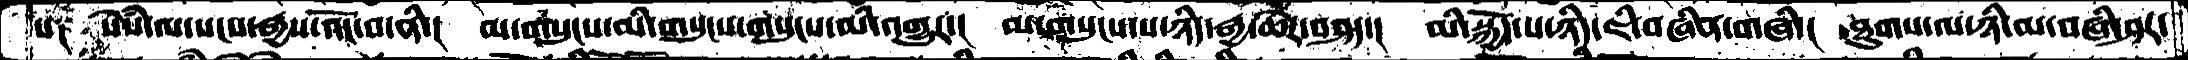པ༑  སེཾས་ལ་སངས་རྒྱས་འོང་བ་ནི་།  མ་གསུངས་མི་གསུངས་གསུངས་མི་འགྱུར་།  མ་གསུངས་པ་ཉིད་རྒྱ་ཆེར་བཤད་།  མི་སྐྱོད་པ་ཉིད་ཇི་བཞིན་གཞི།  ཐུགས་ལ་ཉི་མ་བཞི་ཤར་
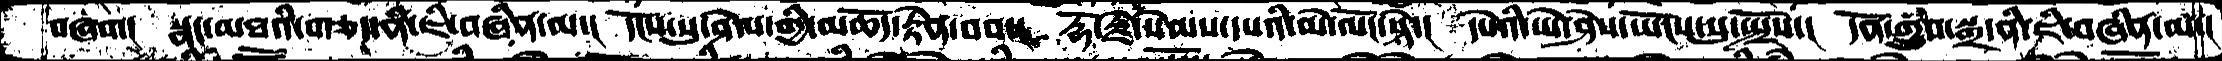བཞག།  སྣང་མཐའི་གཅད་ནི་ཇི་བཞིན་མ་།  དངོས་སུ་ཤེལ་གྱི་མཆོད་རྟེན་བབ་།  རྡོ་རྗེ་སེམས་དཔའི་མེ་ལོང་སྟེ་།  དཔེའི་ཡེ་ཤེས་ཡོངས་སུ་སྤྲོས་།  དོན་གྲུབ་སྒྲ་ནི་ཇི་བཞིན་མ་།
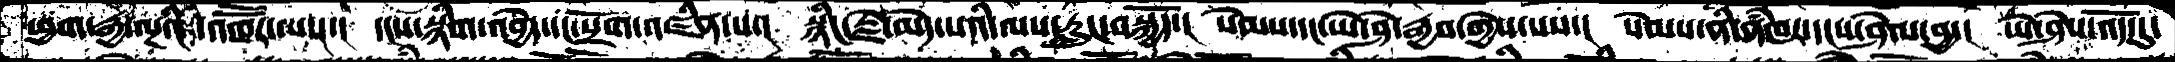ཕྱག་རྒྱ་ལྔའི་འཁཽར་ལས་།  དངས་སྙིག་འབྱེད་དང་སྲོག་འཛིན་པ་།  སྙིང་རྗེ་མེད་པའི་ལས་རླུང་བསྐྱོད་།  སེམས་དང་ཡེ་ཤེ་རྒྱབ་གྱེས་པས་།  སེམས་ནི་ནཾཁར་དངས་ཤེལ་བྱ་།  ཡེ་ཤེས་འོད་དུ་
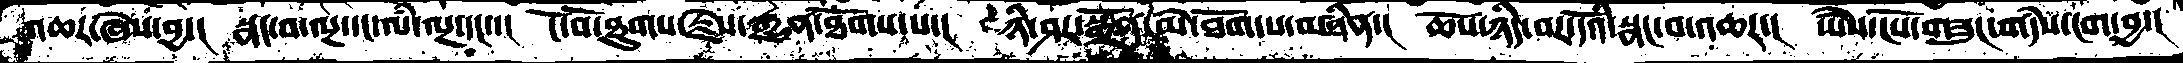འཆར་ཞེས་བྱ་།  སྣང་བ་ལྔ་དང་ལཾ་ལྔ་དང་་།  ངོ་བོ་ཐུགས་རྗེས་རྒྱུན་ཐོགས་པ་།  ཉི་ཤར་སྒྲོན་མེ་ཐོག་པ་བཞིན་།  ཆོས་ཉིད་བར་དོའི་སྣང་བ་འཆར་།  ཡཻས་ངོས་གཟུང་གདཾས་ངག་བྱ་།
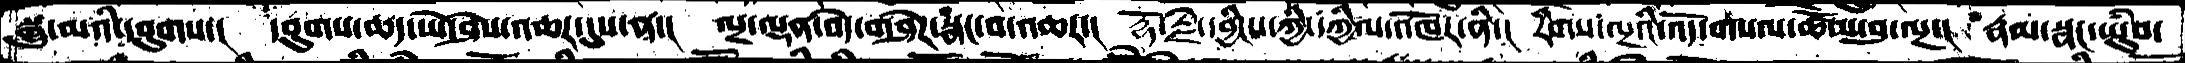སྒྱུ་མའི་དབུགས་།  དབུགས་ཆད་ཡེ་ཤེས་འཆར་དུས་ན་།  ལྔ་ལྡན་བདེ་གཤེཌ་སྣང་བ་འཆར་།  རྡོ་རྗེ་དབྱིངས་ཀྱི་དཀྱིལ་འཁོར་ནི་།  རིགས་ལྔའི་འོད་གསལ་ཚོམ་བུ་ལྔ་།  རྣམ་སྣང་ཡུཾབ་
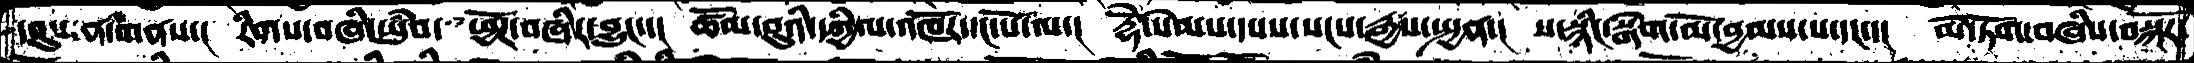དབུས་ན་གནས་།  རིགས་བཞི་ཡུཾབ་  ཕྱོཌ་བཞིར་བྱུང་།  ཚོམ་བུའི་དཀྱིལ་འཁོར་དང་པོ་ལ་།  རྡོེ་སེམས་དཔའ་སངས་རྒྱས་སྤྱན་།  ས་སྙིང་སྒེག་མོ་བྱམས་པ་དང་་།  མེ་ཏོག་བཞིས་བསྐོར་
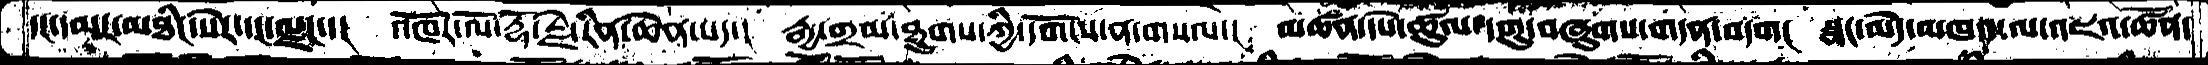དང་དམར་མཐིང་སེར་དང་ལྗང་་།  འཁོར་ལོ་རྡོ་རྗེ་རིན་ཆེན་པད་།  རྒྱ་གྲམ་ཐུགས་ཀྱི་དགོངས་ན་གསལ་།  མཚན་དཔེ་ཚུལ་དགུ་བཞུགས་གདན་བདག།  སྣང་མེད་མཁའ་ལ་འཇའ་ཚོན་
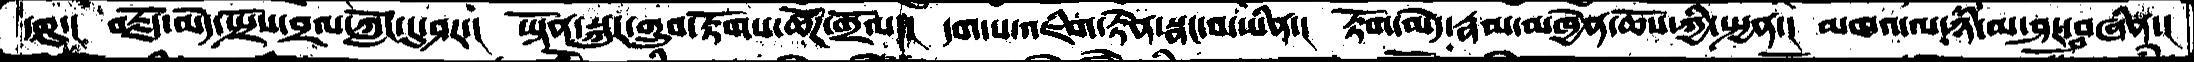དགུ་།  བརྗོད་མེད་སྤྲོས་བྲལ་ཀློང་དུ་ཤར་།  ཡྟོན་སྐུར་གྲུབ་རྟོགས་ཚོཌ་གྲོལ་།  དག་པ་འཇིག་རྟེན་སྣང་བ་ཡིན་།  རྟོག་མེད་རྣམ་མཁྱེན་ཆོས་ཀྱི་སྤྱན་།  མཁའ་ལ་ཉི་མ་ཤར་བཞིན་།
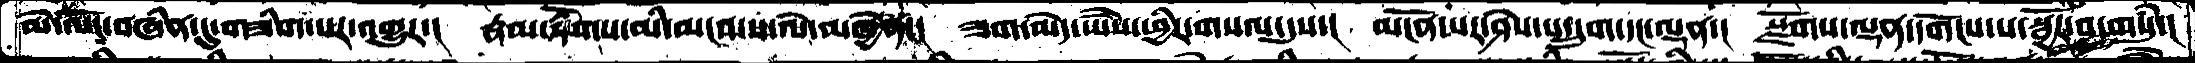མེ་ལོང་བཞིན་དུ་གཟིག་པར་འགྱུར་།  རྣམ་རྟོགས་མི་མངའ་ས་ལེ་མཁྱེན་།  ཟག་མེད་ཡཻས་ཕྱིར་གསལ་དུས་།  མངོན་པར་ཤེས་པ་དྲུག་དང་ལྡན་།  སྫོགས་ལྡན་དགོངས་པ་སྦྱོར་བ་གསུཾ་།
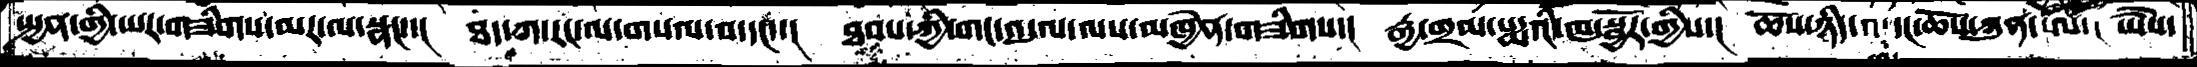སྤྱན་གྱི་ཡར་གཟིགས་མར་ལ་སྣང་་། ཐད་ཀ་རང་ལ་གསལ་བ་དང་་། ཐབས་ཀྱི་གང་འདུལ་ལས་མཁྱེན་གཟིགས་། རྒྱ་གྲམ་པདྨའི་ཁ་སྦྱོར་གྱིས་། ཆོས་ཉིད་ལྔ་དང་ཆོས་ཀུན་ཨ་། ཡཻས་
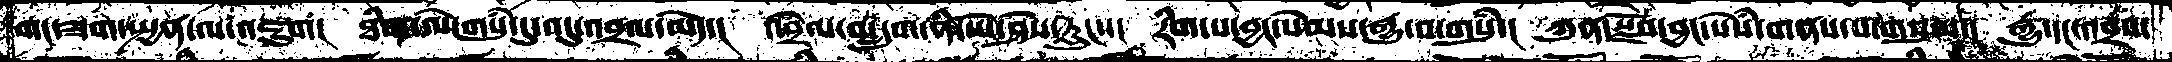གང་ཟག་སྤྱན་ལ་འཇུག།  ཐིག་ལེ་གསུཾ་དུ་འདུ་འབྲལ་་མེད་།  འབྲེལ་བ་དྲུག་ནི་ཡེ་ཤེས་རླུང་་།  རིག་པ་བྱང་ཆུབ་རྒྱུ་བ་གསུཾ་།  ཀུན་སྫོབ་བྱང་སེཾས་གནས་པ་གསུམ་།  རྒྱུ་དང་འབྲས་
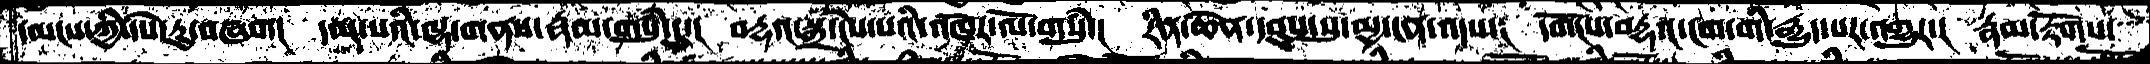དམངས་ཀྱི་དཔེ་རུ་བཞག།  དམ་པའི་ལྷ་གནས་རྣམ་གསུཾ་དུ་།  བརྡའ་སྒྲ་ངེས་པའི་འཁོར་ལོ་གསུཾ་།  རིན་ཆེན་དབུས་སུ་མྱ་ངན་འདས་།  དགོངས་བརྡའ་ངག་གི་རྒྱུད་པར་འགྱུར་།  རྣམ་རྟོགས་
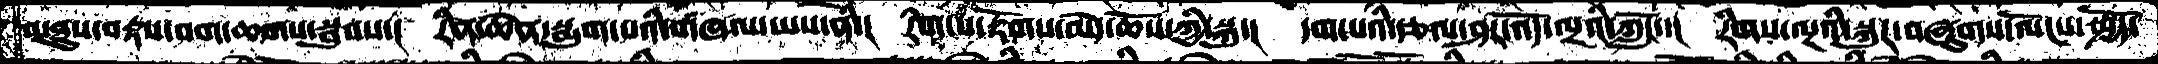མཐུས་བརྟས་བག་ཆགས་སྦུབས་།  རིན་ཆེན་སྨུག་པའི་གཞལ་ཡས་ནི་།  རིག་པ་རྟོགས་མེད་ཆོས་ཀྱི་སྐུ་།  དག་པའི་རྩལ་ཤར་འོད་ལྔའི་ཀློང་་།  རིགས་ལྔའི་སྐུར་བཞུགས་ལོངས་སྤྱོད་
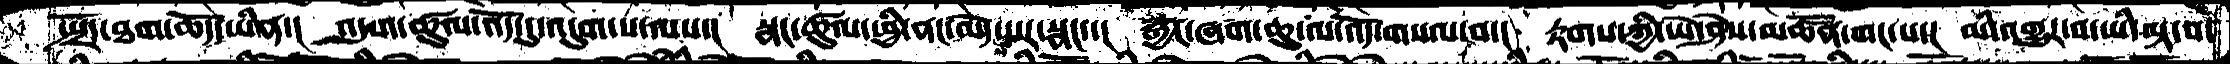སྤྲོད་ཐག་ཆོད་ཡིན་། འདུག་ཚུལ་འོད་དུ་འདུག་པ་ལས་། སྣང་ཚུལ་ཕྱི་ནང་མེད་པར་སྣང་་། རྒྱང་ཞག་ཆུ་ལ་འོད་གསལ་བ་། རྟགས་ཀྱི་ཡེ་ཤེས་མཚོན་གང་པ་། མི་འགྱུར་བ་ཡི་ལྟ་བ་
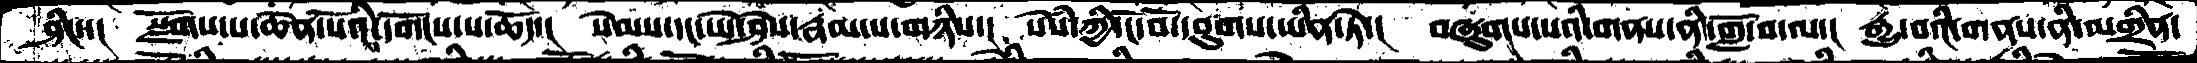ཤིང་་།  སྫོགས་པ་ཆེན་པོའི་དགོངས་པ་ཆོད་།  སེམས་དང་ཡེ་ཤེས་རྣམ་པ་གཉིས་།  སེཾས་ཀྱི་ངོ་བོ་དབུགས་ཡིན་ཏེ་།  བཞུགས་པའི་གནས་ནི་གློ་བ་ལ་།  རྒྱུ་བའི་གནས་ནི་མགྲིན་
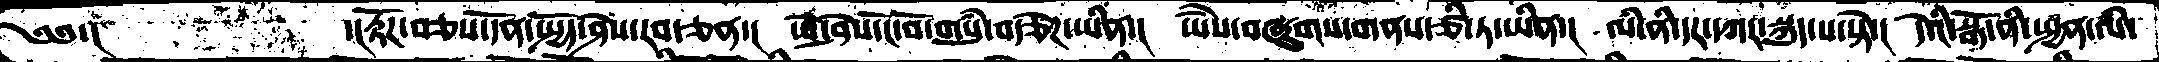༄༅་།         ་།་རྟོཌ་བཅས་དོན་སྤྱོད་ཤེསརབ་ཅན་།  ཡེ་ཤེས་ངོ་བོ་གསུཾ་བརྩེཌ་ཡིན་།  ཡཻས་བཞུགས་གནས་ཙི་ཏ་ཡིན་།  ལི་ནི་དར་དཀར་སྐུད་པ་སྟེ་།  དེའི་སྒོ་ནི་སྤྱན་ལཾ་
